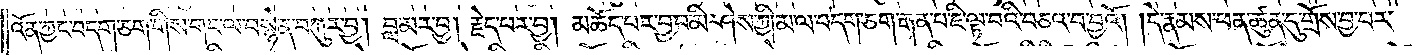འོན་ཀྱང་བདག་ཅག་གིས་གང་ལ་བསྙེན་བཀུར་བྱ། བླ་མར་བྱ། རྗེད་པར་བྱ། མཆོད་པར་བྱ་བ་མི་ཤེས་ཀྱི། མ་ལ་བདག་ཅག་རྒན་བ་ཇི་ལྟ་པའི་བཅའ་བ་བྱའོ། །དེ་རྣམས་ཕན་ཚུན་དུ་གྲོས་བྱ་བར་
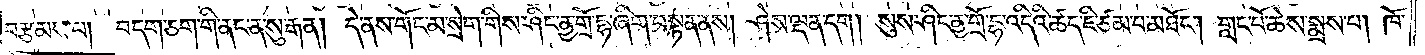བརྩམས་པ། བདག་ཅག་གི་ནང་ན་སུ་རྒན། དེ་ནས་གོང་མ་སྲེག་གིས་ཤིང་ནྱ་གྲོ་དྷ་ཞིག་བསྟན་ནས། ཤེས་ལྡན་དག། སུས་ཤིང་ནྱ་གྲོ་དྷ་འདིའི་ཚད་ཇི་ཙམ་པ་མཐོང༌། གླང་པོ་ཆེས་སྨྲས་པ། ཁོ་
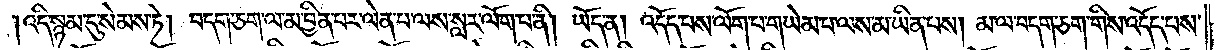འདི་སྙམ་དུ་སེམས་ཏེ། བདག་ཅག་ལ་མ་བྱིན་པར་ལེན་པ་ལས་སླར་ལོག་པ་ནི། ཡོད་ན། འདོད་པས་ལོག་པ་གཡེམ་པ་ལས་མ་ཡིན་པས། མ་ལ་བདག་ཅག་གིས་འདོད་པས་
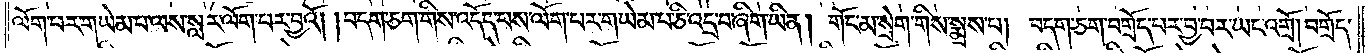ལོག་པར་གཡེམ་པ་ལས་སླར་ལོག་པར་བྱའོ། །བདག་ཅག་གིས་འདོད་པས་ལོག་པར་གཡེམ་པ་ཅི་འདྲ་བ་ཞིག་ཡིན། གོང་མ་སྲེག་གིས་སྨྲས་པ། བདག་ཅག་བགྲོད་པར་བྱ་བར་ཡང་འགྲོ། བགྲོད་
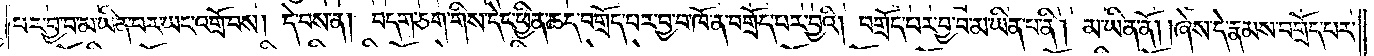པར་བྱ་བ་མ་ཡིན་པར་ཡང་འགྲོ་བས། དེ་བས་ན། བདག་ཅག་གིས་དེང་ཕྱིན་ཆད་བགྲོད་པར་བྱ་བ་ཁོ་ན་བགྲོད་པར་བྱའི། བགྲོད་པར་བྱ་བ་མ་ཡིན་པ་ནི། མ་ཡིན་ནོ། །ཞེས་དེ་རྣམས་བགྲོད་པར་
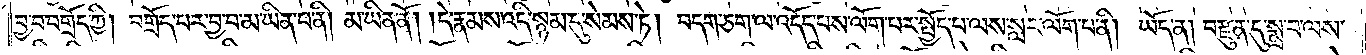བྱ་བ་བགྲོད་ཀྱི། བགྲོད་པར་བྱ་བ་མ་ཡིན་པ་ནི། མ་ཡིན་ནོ། །དེ་རྣམས་འདི་སྙམ་དུ་སེམས་ཏེ། བདག་ཅག་ལ་འདོད་པས་ལོག་པར་སྤྱོད་པ་ལས་སླར་ལོག་པ་ནི། ཡོད་ན། བརྫུན་དུ་སྨྲ་བ་ལས་
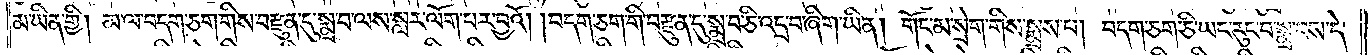མ་ཡིན་གྱི། མ་ལ་བདག་ཅག་གིས་བརྫུན་དུ་སྨྲ་བ་ལས་སླར་ལོག་པར་བྱའོ། །བདག་ཅག་གི་བརྫུན་དུ་སྨྲ་བ་ཅི་འདྲ་བ་ཞིག་ཡིན། གོང་མ་སྲེག་གིས་སྨྲས་པ། བདག་ཅག་ཅི་ཡང་རུང་བ་སྨྲ་བས་དེ་
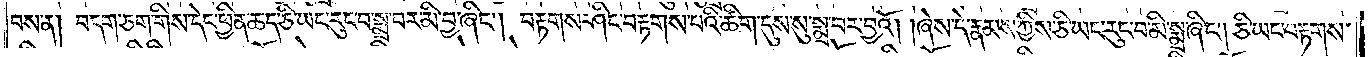བས་ན། བདག་ཅག་གིས་དེང་ཕྱིན་ཆད་ཅི་ཡང་རུང་བ་སྨྲ་བར་མི་བྱ་ཞིང༌། བརྟགས་ཤིང་བརྟགས་པའི་ཚིག་དུས་སུ་སྨྲ་བར་བྱའོ། །ཞེས་དེ་རྣམས་ཀྱིས་ཅི་ཡང་རུང་བ་མི་སྨྲ་ཞིང༌། ཅི་ཡང་བརྟགས་
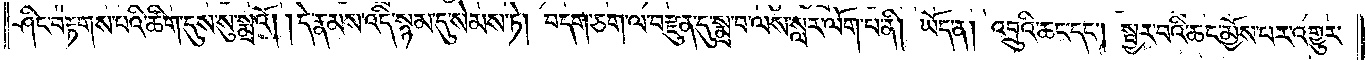ཤིང་བརྟགས་པའི་ཚིག་དུས་སུ་སྨྲའོ། །དེ་རྣམས་འདི་སྙམ་དུ་སེམས་ཏེ། བདག་ཅག་ལ་བརྫུན་དུ་སྨྲ་བ་ལས་སླར་ལོག་པ་ནི། ཡོད་ན། འབྲུའི་ཆང་དང༌། སྦྱར་བའི་ཆང་མྱོས་པར་འགྱུར་
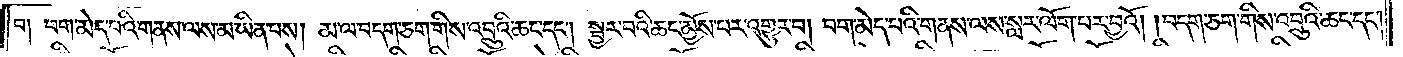བ། བག་མེད་པའི་གནས་ལས་མ་ཡིན་པས། མ་ལ་བདག་ཅག་གིས་འབྲུའི་ཆང་དང༌། སྦྱར་བའི་ཆང་མྱོས་པར་འགྱུར་བ། བག་མེད་པའི་གནས་ལས་སླར་ལོག་པར་བྱའོ། །བདག་ཅག་གིས་འབྲུའི་ཆང་དང་
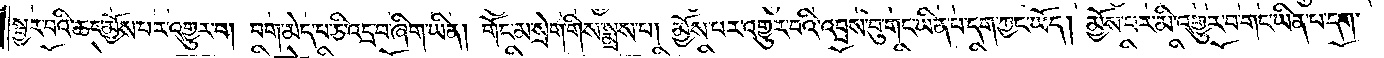སྦྱར་བའི་ཆང་མྱོས་པར་འགྱུར་བ། བག་མེད་པ་ཅི་འདྲ་བ་ཞིག་ཡིན། གོང་མ་སྲེག་གིས་སྨྲས་པ། མྱོས་པར་འགྱུར་བའི་འབྲས་བུ་གང་ཡིན་པ་དག་ཀྱང་ཡོད། མྱོས་པར་མི་འགྱུར་བ་གང་ཡིན་པ་དག་
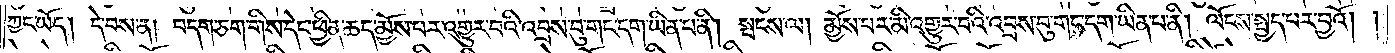ཀྱང་ཡོད། དེ་བས་ན། བདག་ཅག་གིས་དེང་ཕྱིན་ཆད་མྱོས་པར་འགྱུར་བའི་འབྲས་བུ་གང་དག་ཡིན་པ་ནི། སྤངས་ལ། མྱོས་པར་མི་འགྱུར་བའི་འབྲས་བུ་གང་དག་ཡིན་པ་ནི། ལོངས་སྤྱད་པར་བྱའོ། །
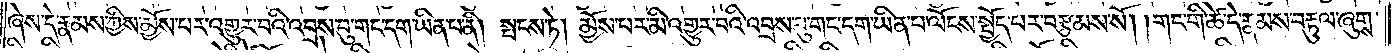ཞེས་དེ་རྣམས་ཀྱིས་མྱོས་པར་འགྱུར་བའི་འབྲས་བུ་གང་དག་ཡིན་པ་ནི། སྤངས་ཏེ། མྱོས་པར་མི་འགྱུར་བའི་འབྲས་བུ་གང་དག་ཡིན་པ་ལོངས་སྤྱོད་པར་བརྩམས་སོ། །གང་གི་ཚེ་དེ་རྣམས་བརྟུལ་ཞུགས་
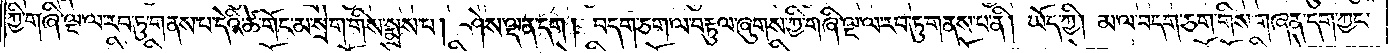ཀྱི་གཞི་ལྔ་ལ་རབ་ཏུ་གནས་པ་དེའི་ཚེ་གོང་མ་སྲེག་གིས་སྨྲས་པ། ཤེས་ལྡན་དག། བདག་ཅག་ལ་བརྟུལ་ཞུགས་ཀྱི་གཞི་ལྔ་ལ་རབ་ཏུ་གནས་པ་ནི། ཡོད་ཀྱི། མ་ལ་བདག་ཅག་གིས་གཞན་དག་ཀྱང་
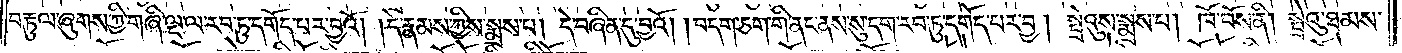བརྟུལ་ཞུགས་ཀྱི་གཞི་ལྔ་ལ་རབ་ཏུ་དགོད་པར་བྱའོ། །དེ་རྣམས་ཀྱིས་སྨྲས་པ། དེ་བཞིན་དུ་བྱའོ། །བདག་ཅག་གི་ནང་ནས་སུ་དག་རབ་ཏུ་དགོད་པར་བྱ། སྤྲེའུས་སྨྲས་པ། ཁོ་བོས་ནི། སྤྲེའུ་ཐམས་
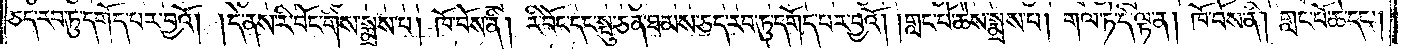ཅད་རབ་ཏུ་དགོད་པར་བྱའོ། །དེ་ནས་རི་བོང་གིས་སྨྲས་པ། ཁོ་བོས་ནི། རི་བོང་དང་སྤུ་ཅན་ཐམས་ཅད་རབ་ཏུ་དགོད་པར་བྱའོ། །གླང་པོ་ཆེས་སྨྲས་པ། གལ་ཏེ་དེ་ལྟ་ན། ཁོ་བོས་ནི། གླང་པོ་ཆེ་དང༌།
